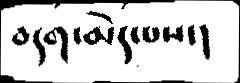བདག་མེད་པས་།
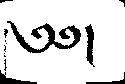༄༅།
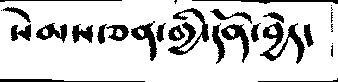སེམས་ཅན་གྱི་དོན་བྱེད་
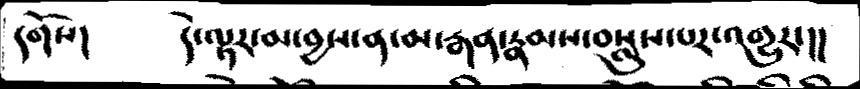དགོས།   དེ་ལྟར་མ་བྱས་ན་མ་རྒན་རྣམས་བསླུས་པར་འགྱུར་།།
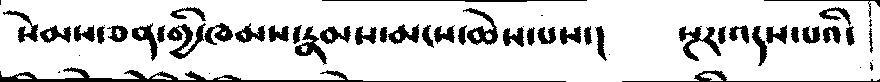སེམས་ཅན་གྱི་ཁམས་རྣམས་མངས་ཆེས་པས་།   སྔར་འདས་པའི་
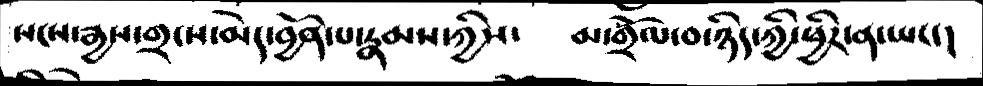སངས་རྒྱས་གྲངས་མེད་བྱོན་པ་རྣམས་ཀྱིས་  མ་གྲོལ་བ་ཉིད་ཀྱི་ཕྱིར་ན་ཡང་།
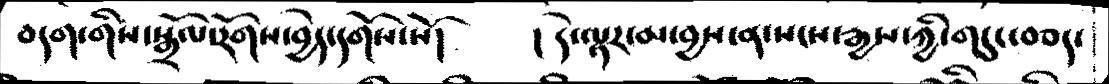བདག་གིས་སྒྲོལ་རོགས་བྱེད་དགོས་སོ།    །དེ་ལྟར་མ་བྱས་ན་སངས་རྒྱས་ཀྱི་གདུང་བཅད་
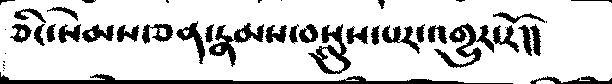ཅིང་སེམས་ཅན་རྣམས་བསླུས་པར་འགྱུར་རོ།།
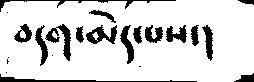བདག་མེད་པས་།
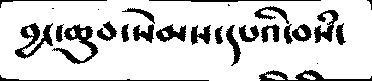བྱང་ཆུབ་སེམས་དཔའི་བསཾ་
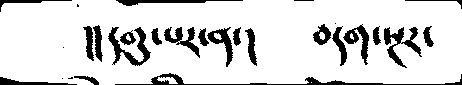།།དགུ་པར་ན་།   བདག་སྔར་
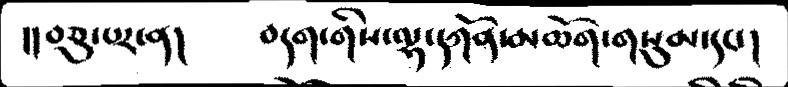།།བཅུ་པར་ན།   བདག་གིས་ལྷ་དཀོན་མཆོག་གསུམ་དང་།
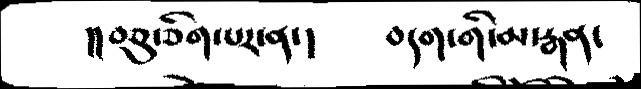།།བཅུ་ཅིག་པར་ན་།   བདག་གི་མ་རྒན་
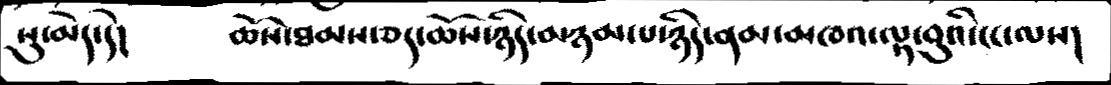སུ་མེད་དེ།   ཆོས་ཐམས་ཅད་ཆོས་ཉིད་མཉམ་པ་ཉིད་ནམ་མཁའ་ལྟ་བུའི་ངང་ལས།
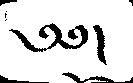༄༅།
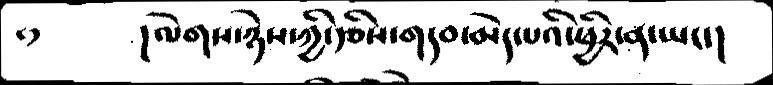༴   །ལེགས་ཉེས་ཀྱི་རྩིས་གདབ་མེད་པའི་ཕྱིར་ན་ཡང་།
